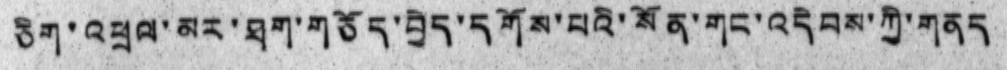ཅིག་འཕྲལ་མར་ཐག་གཅོད་བྱེད་དགོས་པའི་སོན་གང་འདེབས་ཀྱི་གནད
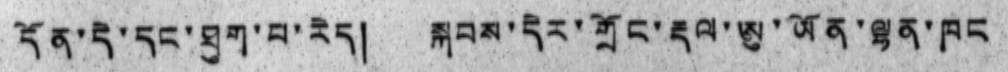དོན་དེ་དང་ཐུག་བ་རེད། སྐབས་དེར་གྲོང་རྡལ་ཨུ་ཡོན་ལྷན་ཁང
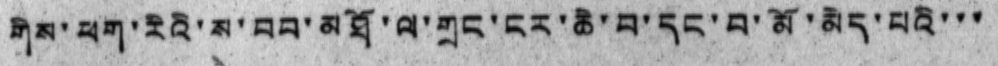གིས་ཕག་རིའི་ས་བབ་མཐོ་ལ་གྲང་ངར་ཆེ་བ་དང་བ་མོ་མེད་པའི་་་
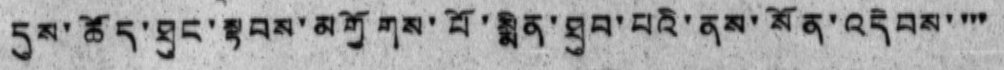དུས་ཚོད་ཐུང་སྟབས་མགྱོགས་པོ་སྨིན་ཐུབ་པའི་ནས་སོན་འདེབས་་་་
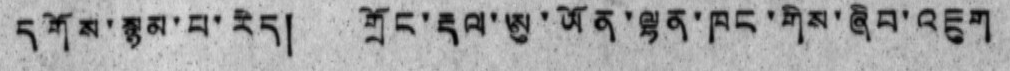དགོས་སྙམ་པ་རེད། གྲོང་རྡལ་ཨུ་ཡོན་ལྷན་ཁང་གིས་ཞིབ་འཇུག
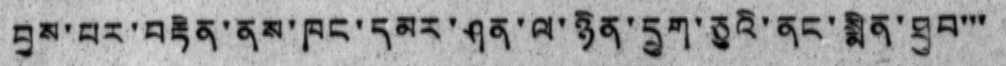བྱས་པར་བརྟེན་ནས་ཁང་དམར་ཤན་ལ་ཉིན་དྲུག་ཅུའི་ནང་སྨིན་ཐུབ་་་
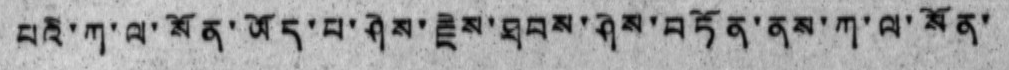པའི་ཀ་ལ་སོན་ཡོད་པ་ཤེས་རྗེས་ཐབས་ཤེས་བཏོན་ནས་ཀ་ལ་སོན་
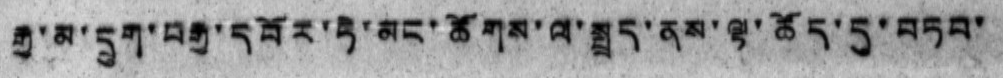རྒྱ་མ་དྲུག་བརྒྱ་དབོར་ཏེ་མང་ཚོགས་ལ་སྤྲད་ནས་ལྟ་ཚོད་དུ་བཏབ་
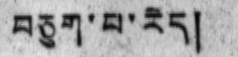བཅུག་པ་རེད།
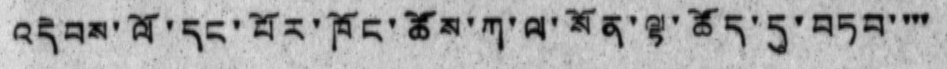འདེབས་ལོ་དང་པོར་ཁོང་ཚོས་ཀ་ལ་སོན་ལྟ་ཚོད་དུ་བཏབ་་་་
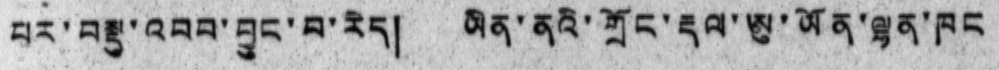པར་བསྡུ་འབབ་བྱུང་བ་རེད། ཡིན་ནའི་གྲོང་རྡལ་ཨུ་ཡོན་ལྷན་ཁང
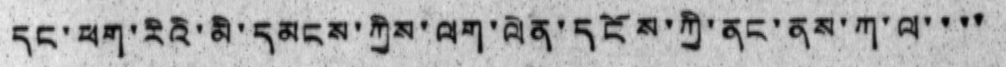དང་ཕག་རིའི་མི་དམངས་ཀྱིས་ལག་ལེན་དངོས་ཀྱི་ནང་ནས་ཀ་ལ་་་་
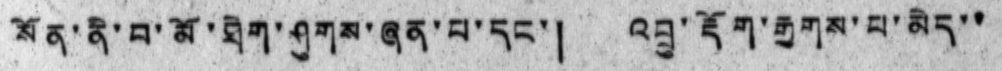སོན་ནི་བ་མོ་ཐེག་ཤུགས་ཞན་པ་དང་། འབྲུ་རྡོག་རྒྱགས་པ་མེད་་
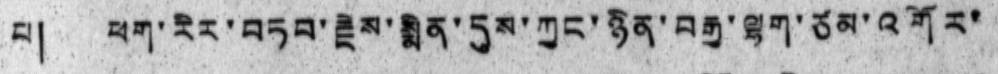པ། ཕག་རིར་བཏབ་རྗེས་སྨིན་དུས་ཀྱང་ཉིན་བརྒྱ་ལྷག་ཙམ་འགོར་
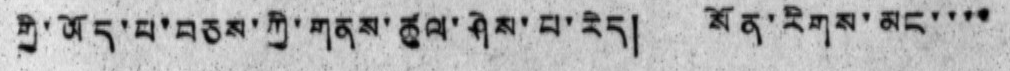གྱི་ཡོད་པ་བཅས་ཀྱི་གནས་ཚུལ་ཤེས་པ་རེད། སོན་རིགས་མང་་་་
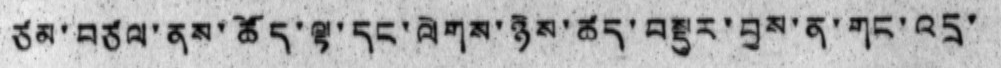ཙམ་བཙལ་ནས་ཚོད་ལྟ་དང་ལེགས་ཉེས་ཚད་བསྡུར་བྱས་ན་གང་འདྲ་
